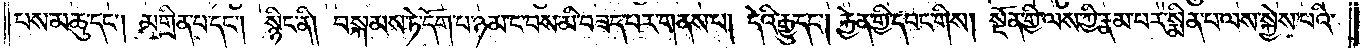པས་མཆུ་དང༌། མགྲིན་པ་དང༌། སྙིང་ནི། བསྐམས་ཏེ་དོག་པ་ཉམ་ང་བས་མི་བཟད་པར་གནས་པ། དེའི་རྒྱུ་དང༌། རྐྱེན་གྱི་དབང་གིས། སྔོན་གྱི་ལས་ཀྱི་རྣམ་པར་སྨིན་པ་ལས་སྐྱེས་པའི་
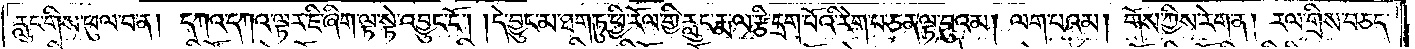རླུང་གིས་ཕུལ་བ་ན། དཀའ་དཀའ་ལྟར་ཇི་ཞིག་ལྟ་སྟེ་འབྱུང་ངོ༌། །དེ་བྱུང་མ་ཐག་ཏུ་ཕྱི་རོལ་གྱི་རླུང་རྨ་ལ་རྩི་དྲག་པོའི་རེག་པ་ཅན་ལྟ་བུའམ། ལག་པའམ། གོས་ཀྱིས་རེག་ན། རལ་གྲིས་བཅད་
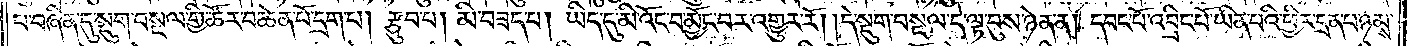པ་བཞིན་དུ་སྡུག་བསྔལ་གྱི་ཚོར་བ་ཆེན་པོ་དྲག་པ། རྩུབ་པ། མི་བཟད་པ། ཡིད་དུ་མི་འོང་བ་མྱོང་བར་འགྱུར་རོ། །དེ་སྡུག་བསྔལ་དེ་ལྟ་བུས་ཉེན་ན། དབང་པོ་འབྲིང་པོ་ཡིན་པའི་ཕྱིར་དྲན་པ་ཉམས་
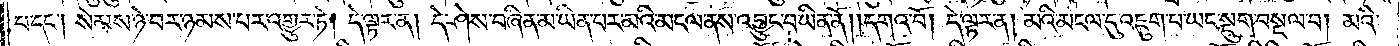པ་དང༌། སེམས་ཉེ་བར་ཉམས་པར་འགྱུར་ཏེ། དེ་ལྟར་ན། དེ་ཤེས་བཞིན་མ་ཡིན་པར་མའི་མངལ་ནས་འབྱུང་བ་ཡིན་ནོ། །དགའ་བོ། དེ་ལྟར་ན། མའི་མངལ་དུ་འཇུག་པ་ཡང་སྡུག་བསྔལ་བ། མའི་
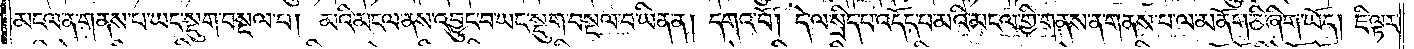མངལ་ན་གནས་པ་ཡང་སྡུག་བསྔལ་པ། མའི་མངལ་ནས་འབྱུང་བ་ཡང་སྡུག་བསྔལ་བ་ཡིན་ན། དགའ་བོ། དེ་ལ་སྲིད་པ་འདོད་པ་མའི་མངལ་གྱི་གནས་ན་གནས་པ་ལ་མནོག་ཅི་ཞིག་ཡོད། ཇི་ལྟར་
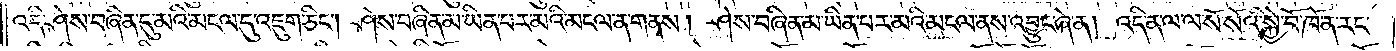འདི་ཤེས་བཞིན་དུ་མའི་མངལ་དུ་འཇུག་ཅིང༌། ཤེས་བཞིན་མ་ཡིན་པར་མའི་མངལ་ན་གནས། ཤེས་བཞིན་མ་ཡིན་པར་མའི་མངལ་ནས་འབྱུང་ཞེ་ན། འདི་ན་ལ་ལ་སོ་སོའི་སྐྱེ་བོ་ཁོ་ན་རང་
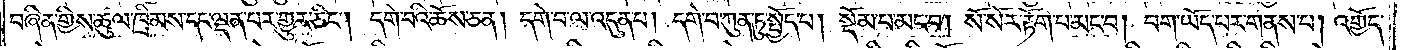བཞིན་གྱིས་ཚུལ་ཁྲིམས་དང་ལྡན་པར་གྱུར་ཅིང༌། དགེ་བའི་ཆོས་ཅན། དགེ་བ་ལ་འདུན་པ། དགེ་བ་ཀུན་ཏུ་སྤྱོད་པ། སྡོམ་པ་མང་བ། སོ་སོར་རྟོག་པ་མང་བ། བག་ཡོད་པར་གནས་པ། འགྱོད་
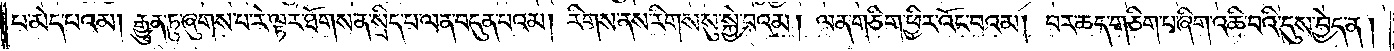པ་མེད་པའམ། རྒྱུན་ཏུ་ཞུགས་པ་རེ་ལྟར་ཐོགས་ན་སྲིད་པ་ལན་བདུན་པའམ། རིགས་ནས་རིགས་སུ་སྐྱེ་བའམ། ལན་གཅིག་ཕྱིར་འོང་བའམ། བར་ཆད་གཅིག་པ་ཞིག་འཆི་བའི་དུས་བྱེད་ན།
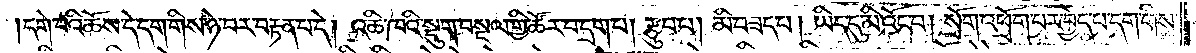དགེ་བའི་ཆོས་དེ་དག་གིས་ཉེ་བར་བརྟན་པ་དེ། འཆི་ཁའི་སྡུག་བསྔལ་གྱི་ཚོར་བ་དྲག་པ། རྩུབ་པ། མི་བཟད་པ། ཡིད་དུ་མི་འོང་བ། སྲོག་འཕྲོག་པར་བྱེད་པ་དག་གིས་
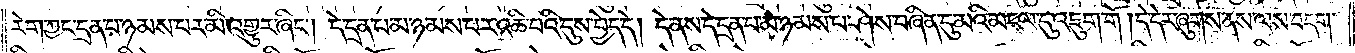རེག་ཀྱང་དྲན་པ་ཉམས་པར་མི་འགྱུར་ཞིང༌། དེ་དྲན་པ་མ་ཉམས་པར་འཆི་བའི་དུས་བྱེད་དེ། དེ་ནས་དེ་དྲན་པ་མ་ཉམས་པ་ཤེས་བཞིན་དུ་མའི་མངལ་དུ་འཇུག་གོ །དེ་དེར་ཞུགས་ནས་ལས་བདག་
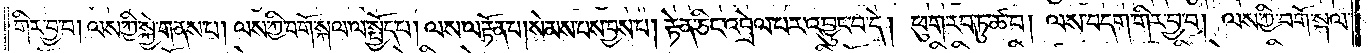གིར་བྱ་བ། ལས་ཀྱི་སྐྱེ་གནས་པ། ལས་ཀྱི་བགོ་སྐལ་ལ་སྤྱོད་པ། ལས་ལ་རྟོན་པ། སེམས་པས་བྱས་པ། རྟེན་ཅིང་འབྲེལ་པར་འབྱུང་བ་དེ། ཕུག་རབ་ཏུ་ཚ་བ། ལས་བདག་གིར་བྱ་བ། ལས་ཀྱི་བགོ་སྐལ་
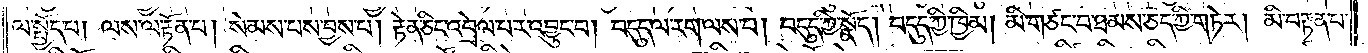ལ་སྤྱོད་པ། ལས་ལ་རྟོན་པ། སེམས་པས་བྱས་པ། རྟེན་ཅིང་འབྲེལ་པར་འབྱུང་བ། བདུད་ལ་རག་ལས་པ། བདུད་ཀྱི་སྣོད། བདུད་ཀྱི་ཁྱིམ། མི་གཙང་བ་ཐམས་ཅད་ཀྱི་གཏེར། མི་བརྟན་པ་
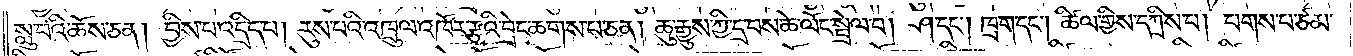སླུ་བའི་ཆོས་ཅན། བྱིས་པ་འདྲིད་པ། རུས་པའི་འཁྲུལ་འཁོར་རྩའི་བྲེང་ཆགས་པ་ཅན། ཆུ་རྒྱུས་ཀྱི་དྲ་བས་ཆེ་ལོང་སྦྲེལ་བ། ཤ་དང༌། ཁྲག་དང༌། ཚིལ་གྱིས་དཀྲིས་པ། པགས་པ་ཙམ་
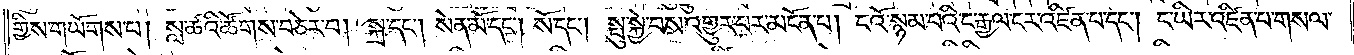གྱིས་གཡོགས་པ། སླ་ཚའི་ཚོགས་བཅེར་བ། སྐྲ་དང༌། སེན་མོ་དང༌། སོ་དང༌། སྤུ་སྐྱེ་བས་འགྱུར་བར་མངོན་པ། ངའོ་སྙམ་པའི་ང་རྒྱལ་ངར་འཛིན་པ་དང༌། ང་ཡིར་འཛིན་པ་གསལ་
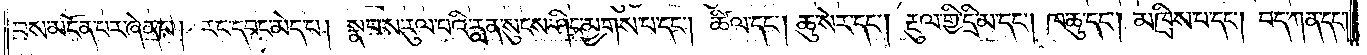པས་མངོན་པར་ཞེན་པ། རང་དབང་མེད་པ། སྣབས་རུལ་པའི་རླན་སུངས་ཤིང་མྱགས་པ་དང༌། ཚིལ་དང༌། ཆུ་སེར་དང༌། རྡུལ་གྱི་དྲི་མ་དང༌། ཁ་ཆུ་དང༌། མཁྲིས་པ་དང༌། བད་ཀན་དང༌།
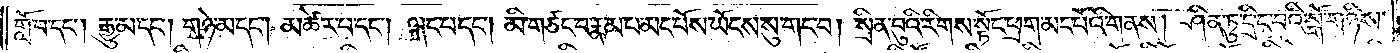གློ་བ་དང༌། རྒྱུ་མ་དང༌། གཉེ་མ་དང༌། མཚེར་པ་དང༌། ལྒང་པ་དང༌། མི་གཙང་བ་རྣམ་པ་མང་པོས་ཡོངས་སུ་གང་བ། སྲིན་བུའི་རིགས་སྟོང་ཕྲག་མང་པོའི་གནས། ཤིན་ཏུ་དྲི་ང་བའི་སྒོ་གཉིས་
